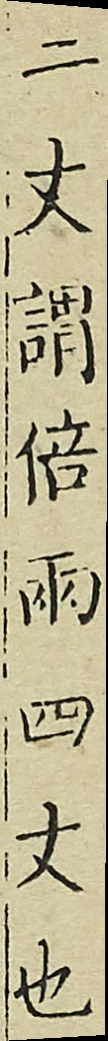二丈謂倍兩四丈也
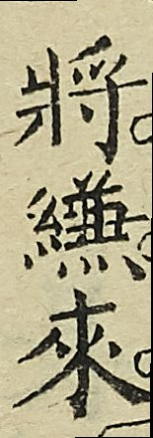將縑來
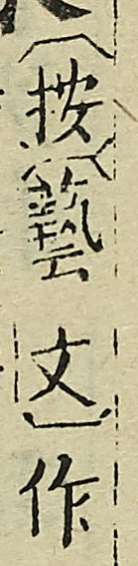（按）（藝文）作
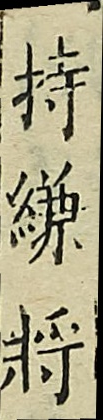持縑將
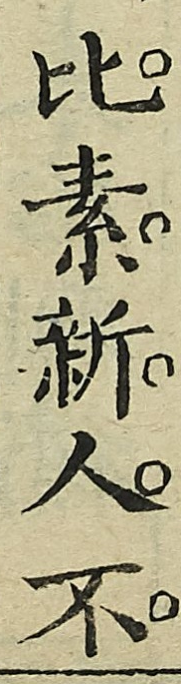比素新人不
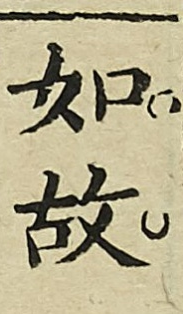如故
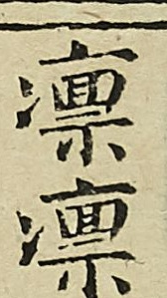凜凜
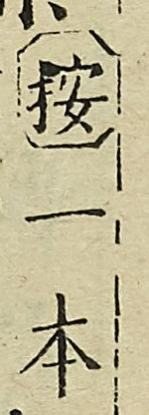（按）一本
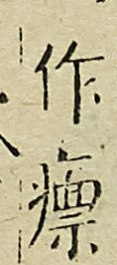作癛
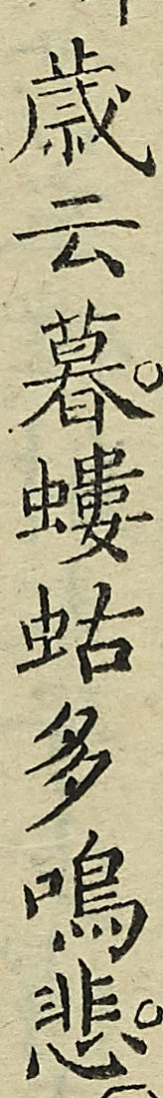歲云暮螻蛄夕鳴悲
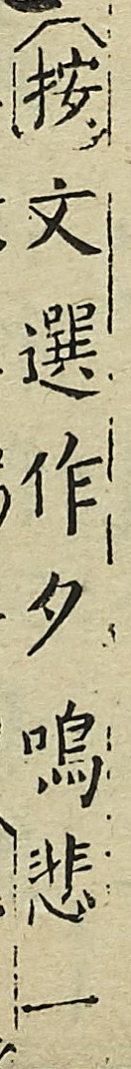（按）文選作夕鳴悲一
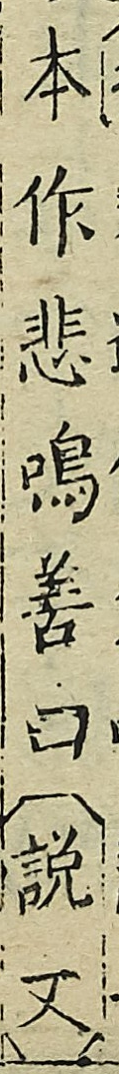本作悲鳴善口（說文）
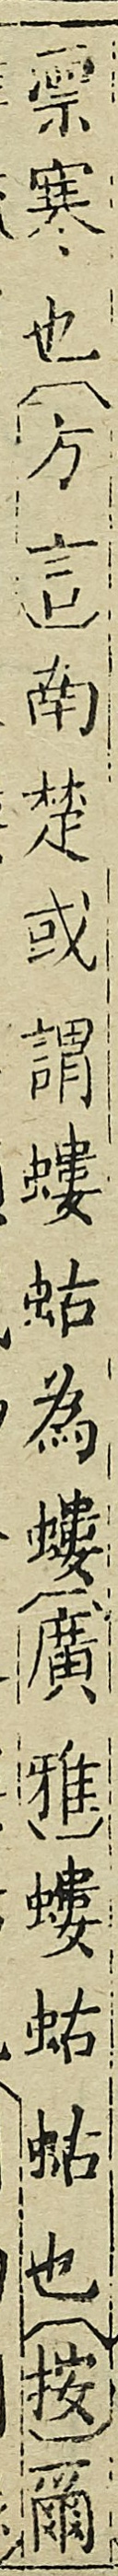凜寒也（方言）南楚或謂螻蛄為螻（廣雅）螻蛄蛄也（按）爾
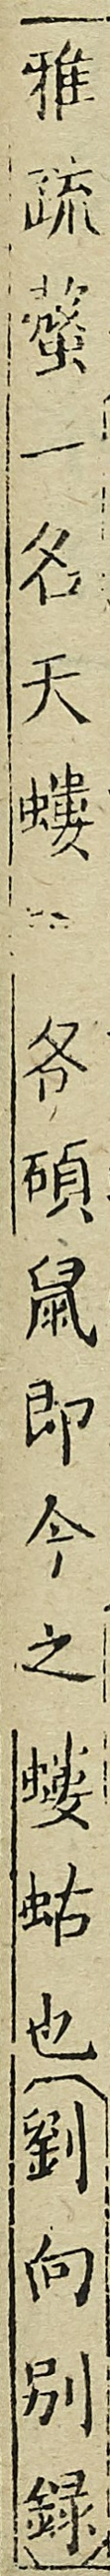雅疏螜一名天螻 一各碩鼠即今之螻蛄也（劉向別錄）
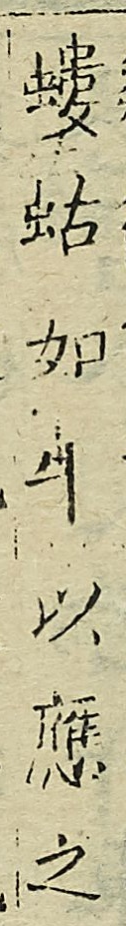螻蛄如牛以應之
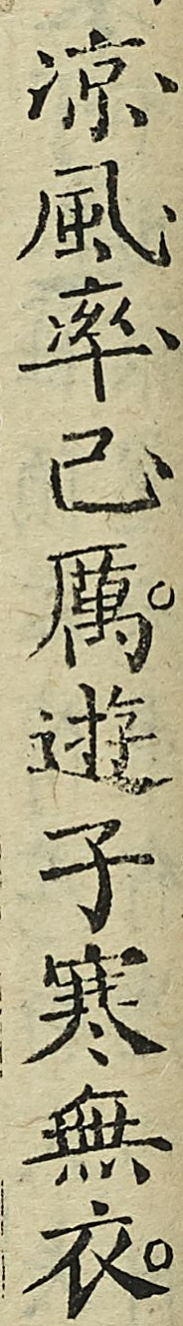涼風率已厲遊子寒無衣
